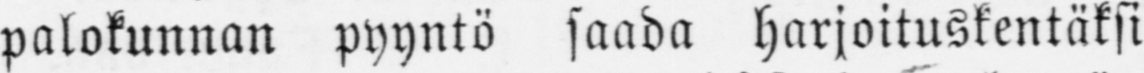palokunnan pyyntö saada harjoituskentäksi
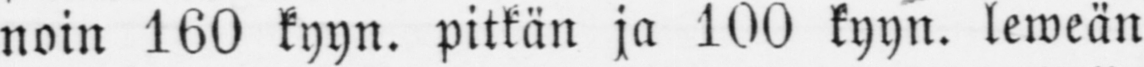noin 160 kyyn. pitkän ja 100 kyyn. leweän
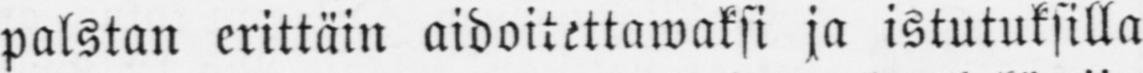palstan erittäin aidoitettawaksi ja istutuksilla
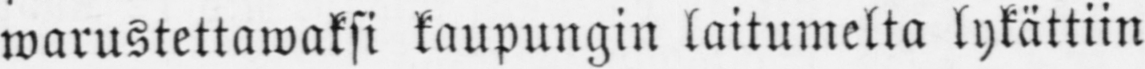warustettaiwaksi kaupungin laitumelta lykättiin
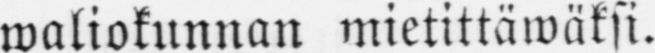waliokunnan mietittäwäksi.
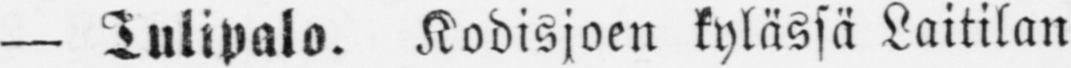— Tulipalo. Kodisjoen kylässä Laitilan
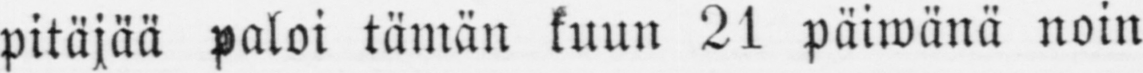pitäjää paloi tämän kuun 21 päiwänä noin
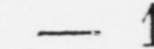12
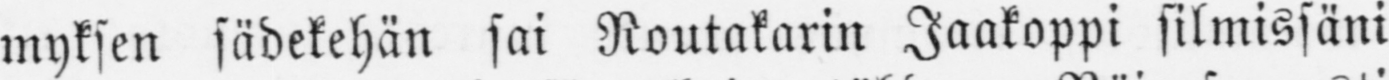myksen sädekehän sai Routakarin Jaakoppi silmissäni
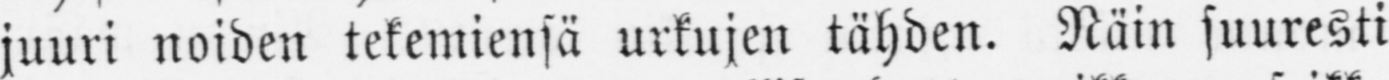juuri noiden tekemiensä urkujen tähden. Näin suuresti
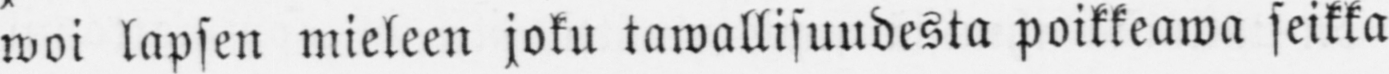woi lapsen mieleen joku tawallisuudesta poikkeawa seikka
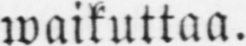waikuttaa.
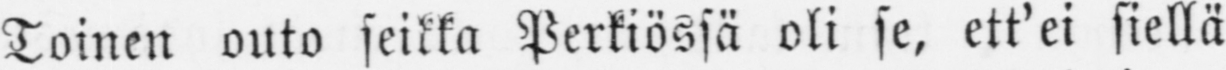Toinen outo seikka Perkiössä oli se, ett'ei siellä
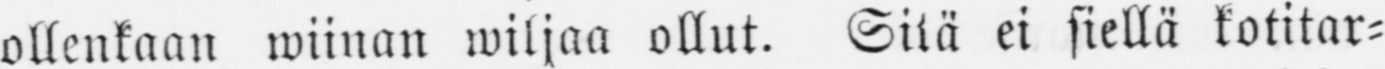ollenkaan wiinan wiljaa ollut. Sitä ei siellä kotitar-
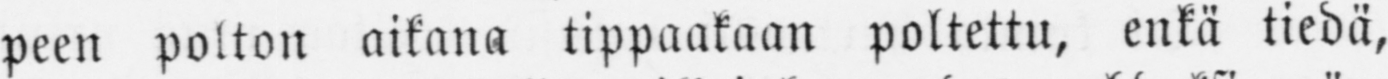peen polton aikana tippaakaan poltettu, enkä tiedä,
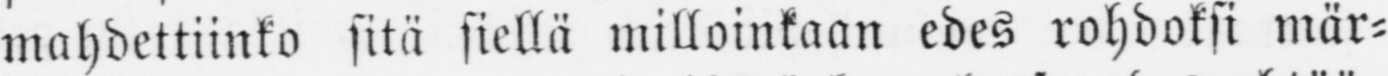mahdettiinko sitä siellä milloinkaan edes rohdoksi mär-
